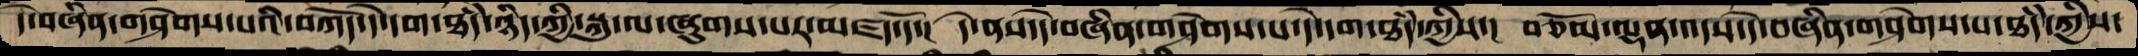དེ་བཞིན་གཤེགས་པའི་བཀོད་དེ་དག་ཐཾད་ཉིད་ཀྱི་སྐུ་ལ་ཞུགས་པར་མཛད་དོ་།  དེ་ནས་དེ་བཞིན་གཤེགས་པ་དེ་དག་ཐཾད་ཀྱིས་།  བཅོམ་ལྡན་འདས་དེ་བཞིན་གཤེགས་པ་ཐཾད་ཀྱིས་
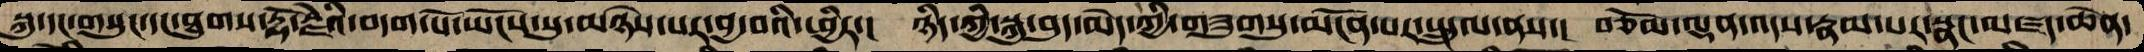སྐུ་དང་གསུང་དང་ཐུགས་རྡོ་རྗེའི་བདག་པོ་ཡོངས་སུ་མཉེས་པར་བྱ་བའི་ཕྱིར་།  ཉིད་ཀྱི་སྐུ་བུད་མེད་ཀྱི་གཟུགསུ་མངོན་པར་སྤྲུལ་ནས་།  བཅོམ་ལྡན་འདས་རྣམ་པར་སྣང་མཛད་ཆེན་
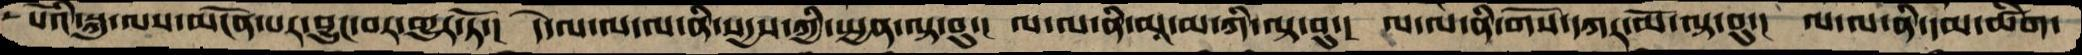པོའི་སྐུ་ལས་མངོན་པར་བྱུང་བར་གྱུར་ཏོ་།།  དེ་ལ་ལ་ལ་ནི་སདྱསཀྱི་སྤྱན་ལྟ་བུ་།  ལ་ལ་ནི་མཱ་མ་ཀི་ལྟ་བུ་།  ལ་ལ་ནི་གོས་དཀར་མོ་ལྟ་བུ་།  ལ་ལ་ནི་དམ་ཚིག་
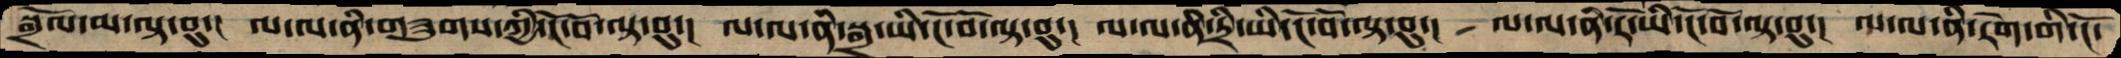སྒྲོལ་མ་ལྟ་བུ་།  ལ་ལ་ནི་གཟུགས་ཀྱི་ངོ་བོ་ལྟ་བུ་།  ལ་ལ་ནི་སྒྲ་ཡི་ངོ་བོ་ལྟ་བུ་།  ལ་ལ་ནི་དྲི་ཡི་ངོ་བོ་ལྟ་བུ་།  ལ་ལ་ནི་རོ་ཡི་ངོ་བོ་ལྟ་བུ་།  ལ་ལ་ནི་རེག་གི་ངོ་
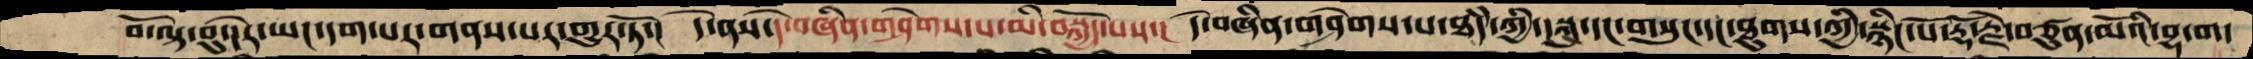བོ་ལྟ་བུ་དེར་ཡང་དག་པར་གནས་པར་གྱུར་ཏོ་།  དེ་ནས་དེ་བཞིན་གཤེགས་པ་མི་བསྐྱོད་པས་།  དེ་བཞིན་གཤེགས་པ་ཐཾད་ཀྱི་སྐུ་དང་གསུང་དང་ཐུགས་ཀྱི་སྙིང་པོ་རྡོ་རྗེ་བཙུན་མོའི་བྷ་ག་
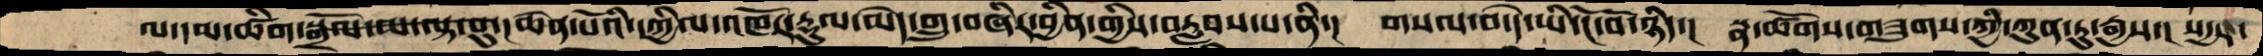ལ་དམ་ཚིག་སྒྲོལ་མ་ལྟ་བུ་།ཆེན་པོའི་དཀྱིལ་འཁོར་རྡུལ་མེད་གྲུ་བཞིར་བྱིན་གྱིས་བརླབས་པ་ནི་།  གསལ་བ་དེ་ཡི་ངོ་བོ་ཉིད་།  སྣ་ཚོགས་གཟུགས་ཀྱི་ཀུན་ཏུ་རྒྱས་།  སདྱས་
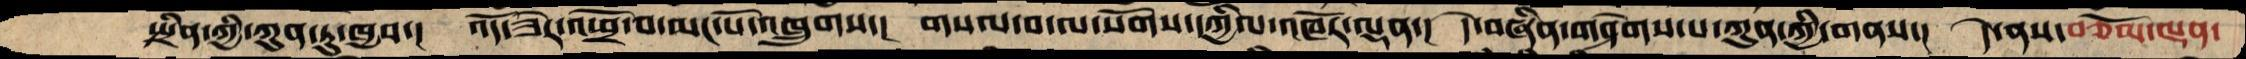སྤྲིན་ཀྱི་ཀུན་ཏུ་ཁྱབ་། འོད་ཟེར་འཕྲོ་བ་མང་པོ་འཁྲུགས་། གསལ་བ་ལ་སོགས་དཀྱིལ་འཁོར་ལྡན་། དེ་བཞིན་གཤེགས་པ་ཀུན་གྱི་གནས་། དེ་ནས་བཅོམ་ལྡན་
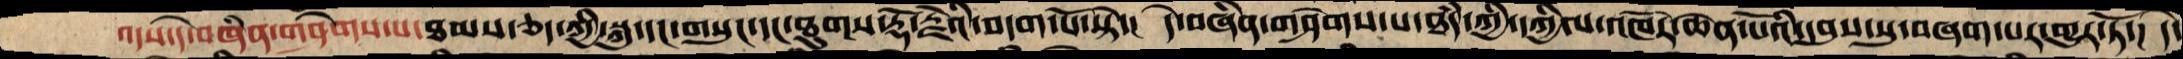འདས་དེ་བཞིན་གཤེགས་པ་ཐམས་ཅད་ཀྱི་སྐུ་དང་གསུང་དང་ཐུགས་རྡོ་རྗེའི་བདག་པོ་སྟེ་།  དེ་བཞིན་གཤེགས་པ་ཐཾད་ཀྱི་དཀྱིལ་འཁོར་ཆེན་པོའི་དབུས་སུ་བཞག་པར་གྱུར་ཏོ་།  དེ་
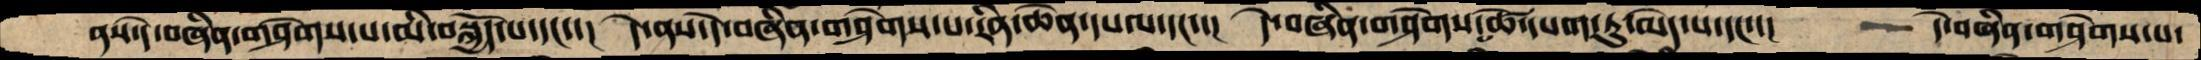ནས་དེ་བཞིན་གཤེགས་པ་མི་བསྐྱོད་པ་དང་་།  དེ་ནས་དེ་བཞིན་གཤེགས་པ་ཪིན་ཆེན་དཔལ་དང་་།  དེ་བཞིན་གཤེགས་ཚེ་དཔག་མེད་དང་་།     དེ་བཞིན་གཤེགས་པ་
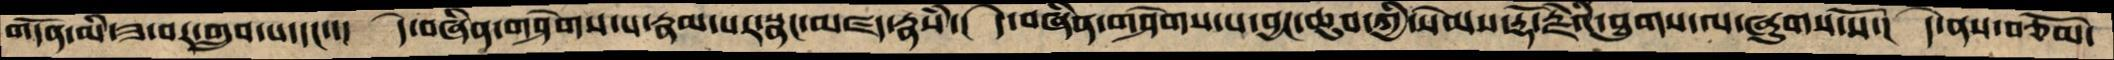གདོན་མིཟ་བར་གྲུབ་པ་དང་་།  དེ་བཞིན་གཤེགས་པ་རྣམ་པར་སྣང་མཛད་རྣཾས་།  དེ་བཞིན་གཤེགས་པ་བྱང་ཆུབ་ཀྱི་སེམས་རྡོ་རྗེའི་ཐུགས་ལ་ཞུགས་སོ་།  དེ་ནས་བཅོམ་
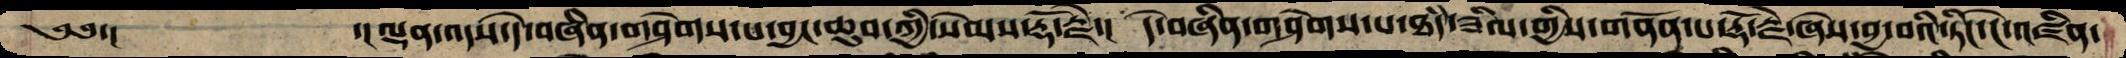༄༅་།    ལྡན་འདས་དེ་བཞིན་གཤེགས་པ་བྱང་ཆུབ་ཀྱི་སེམས་རྡོ་རྗེ་།  དེ་བཞིན་གཤེགས་པ་ཐཾད་ཟིལ་གྱིས་གནོན་པ་རྡོ་རྗེ་ཞེས་བྱ་བའི་ཏིང་ངེ་འཛིན་
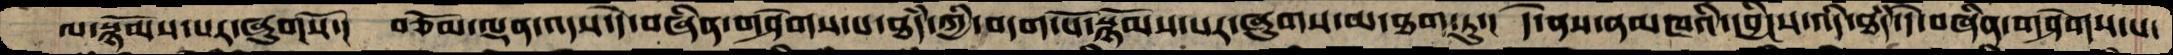ལ་སྙོམས་པར་ཞུགསོ་།  བཅོམ་ལྡན་འདས་དེ་བཞིན་གཤེགས་པ་ཐཾད་ཀྱི་བདག་པོ་སྙོམས་པར་ཞུགས་མ་ཐག་ཏུ་།  དེ་ནས་ནམ་མཁའི་དབྱིངས་འདི་ཐཾད་དེ་བཞིན་གཤེགས་པ་
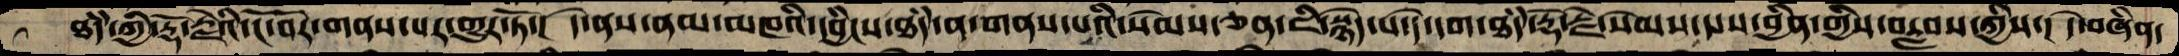ཐཾད་ཀྱི་རྡོ་རྗེའི་ངོ་བོར་གནས་པར་གྱུར་ཏོ་།  དེ་ནས་ནམ་མཁའི་དབྱིངས་ཐཾད་ལ་གནས་པའི་སེམས་ཅན་ཇི་སྙེད་པ་དེ་དག་ཐཾད་རྡོ་རྗེ་སེམས་པས་བྱིན་གྱིས་བརླབས་ཀྱིས་།  དེ་བཞིན་
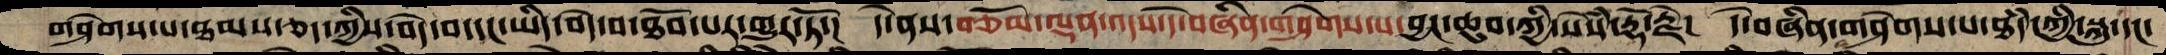གཤེགས་པ་ཐམས་ཅད་ཀྱིས་བདེ་བ་དང་ཡིད་བདེ་བ་ཐོབ་པར་གྱུར་ཏོ་།  དེ་ནས་བཅོམ་ལྡན་འདས་དེ་བཞིན་གཤེགས་པ་བྱང་ཆུབ་ཀྱི་སེཾས་རྡོ་རྗེ།   དེ་བཞིན་གཤེགས་པ་ཐཾད་ཀྱི་སྐུ་དང་
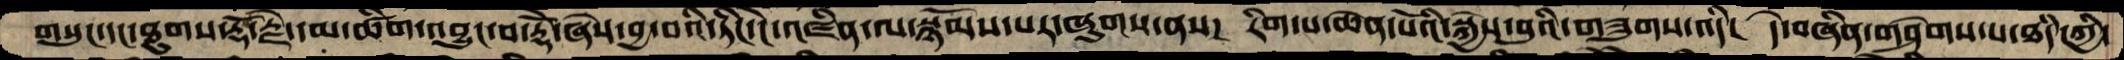གསུང་དང་ཐུགས་རྡོ་རྗེ་དམ་ཚིག་འབྱུང་བ་རྡོེ་་ཞེས་བྱ་བའི་ཏིང་ངེ་འཛིན་ལ་སྙོམས་པར་ཞུགས་ནས་།  རིག་པ་ཆེན་པོའི་སྐྱེས་བུའི་གཟུགས་འདི།  དེ་བཞིན་གཤེགས་པ་ཐཾད་ཀྱི་
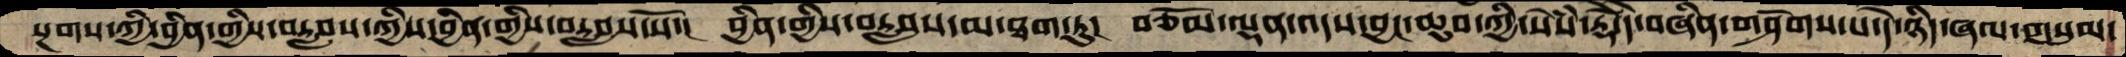སྔགས་ཀྱི་བྱིན་གྱིས་བརླབས་ཀྱིས་བྱིན་གྱིས་བརླབས་སོ་།  བྱིན་གྱིས་བརླབས་མ་ཐག་ཏུ།  བཅོམ་ལྡན་འདས་བྱང་ཆུབ་ཀྱི་སེཾས་རྡོེ་དེ་བཞིན་གཤེགས་པ་དེ་ཉིད་ཞལ་གསུམ་
